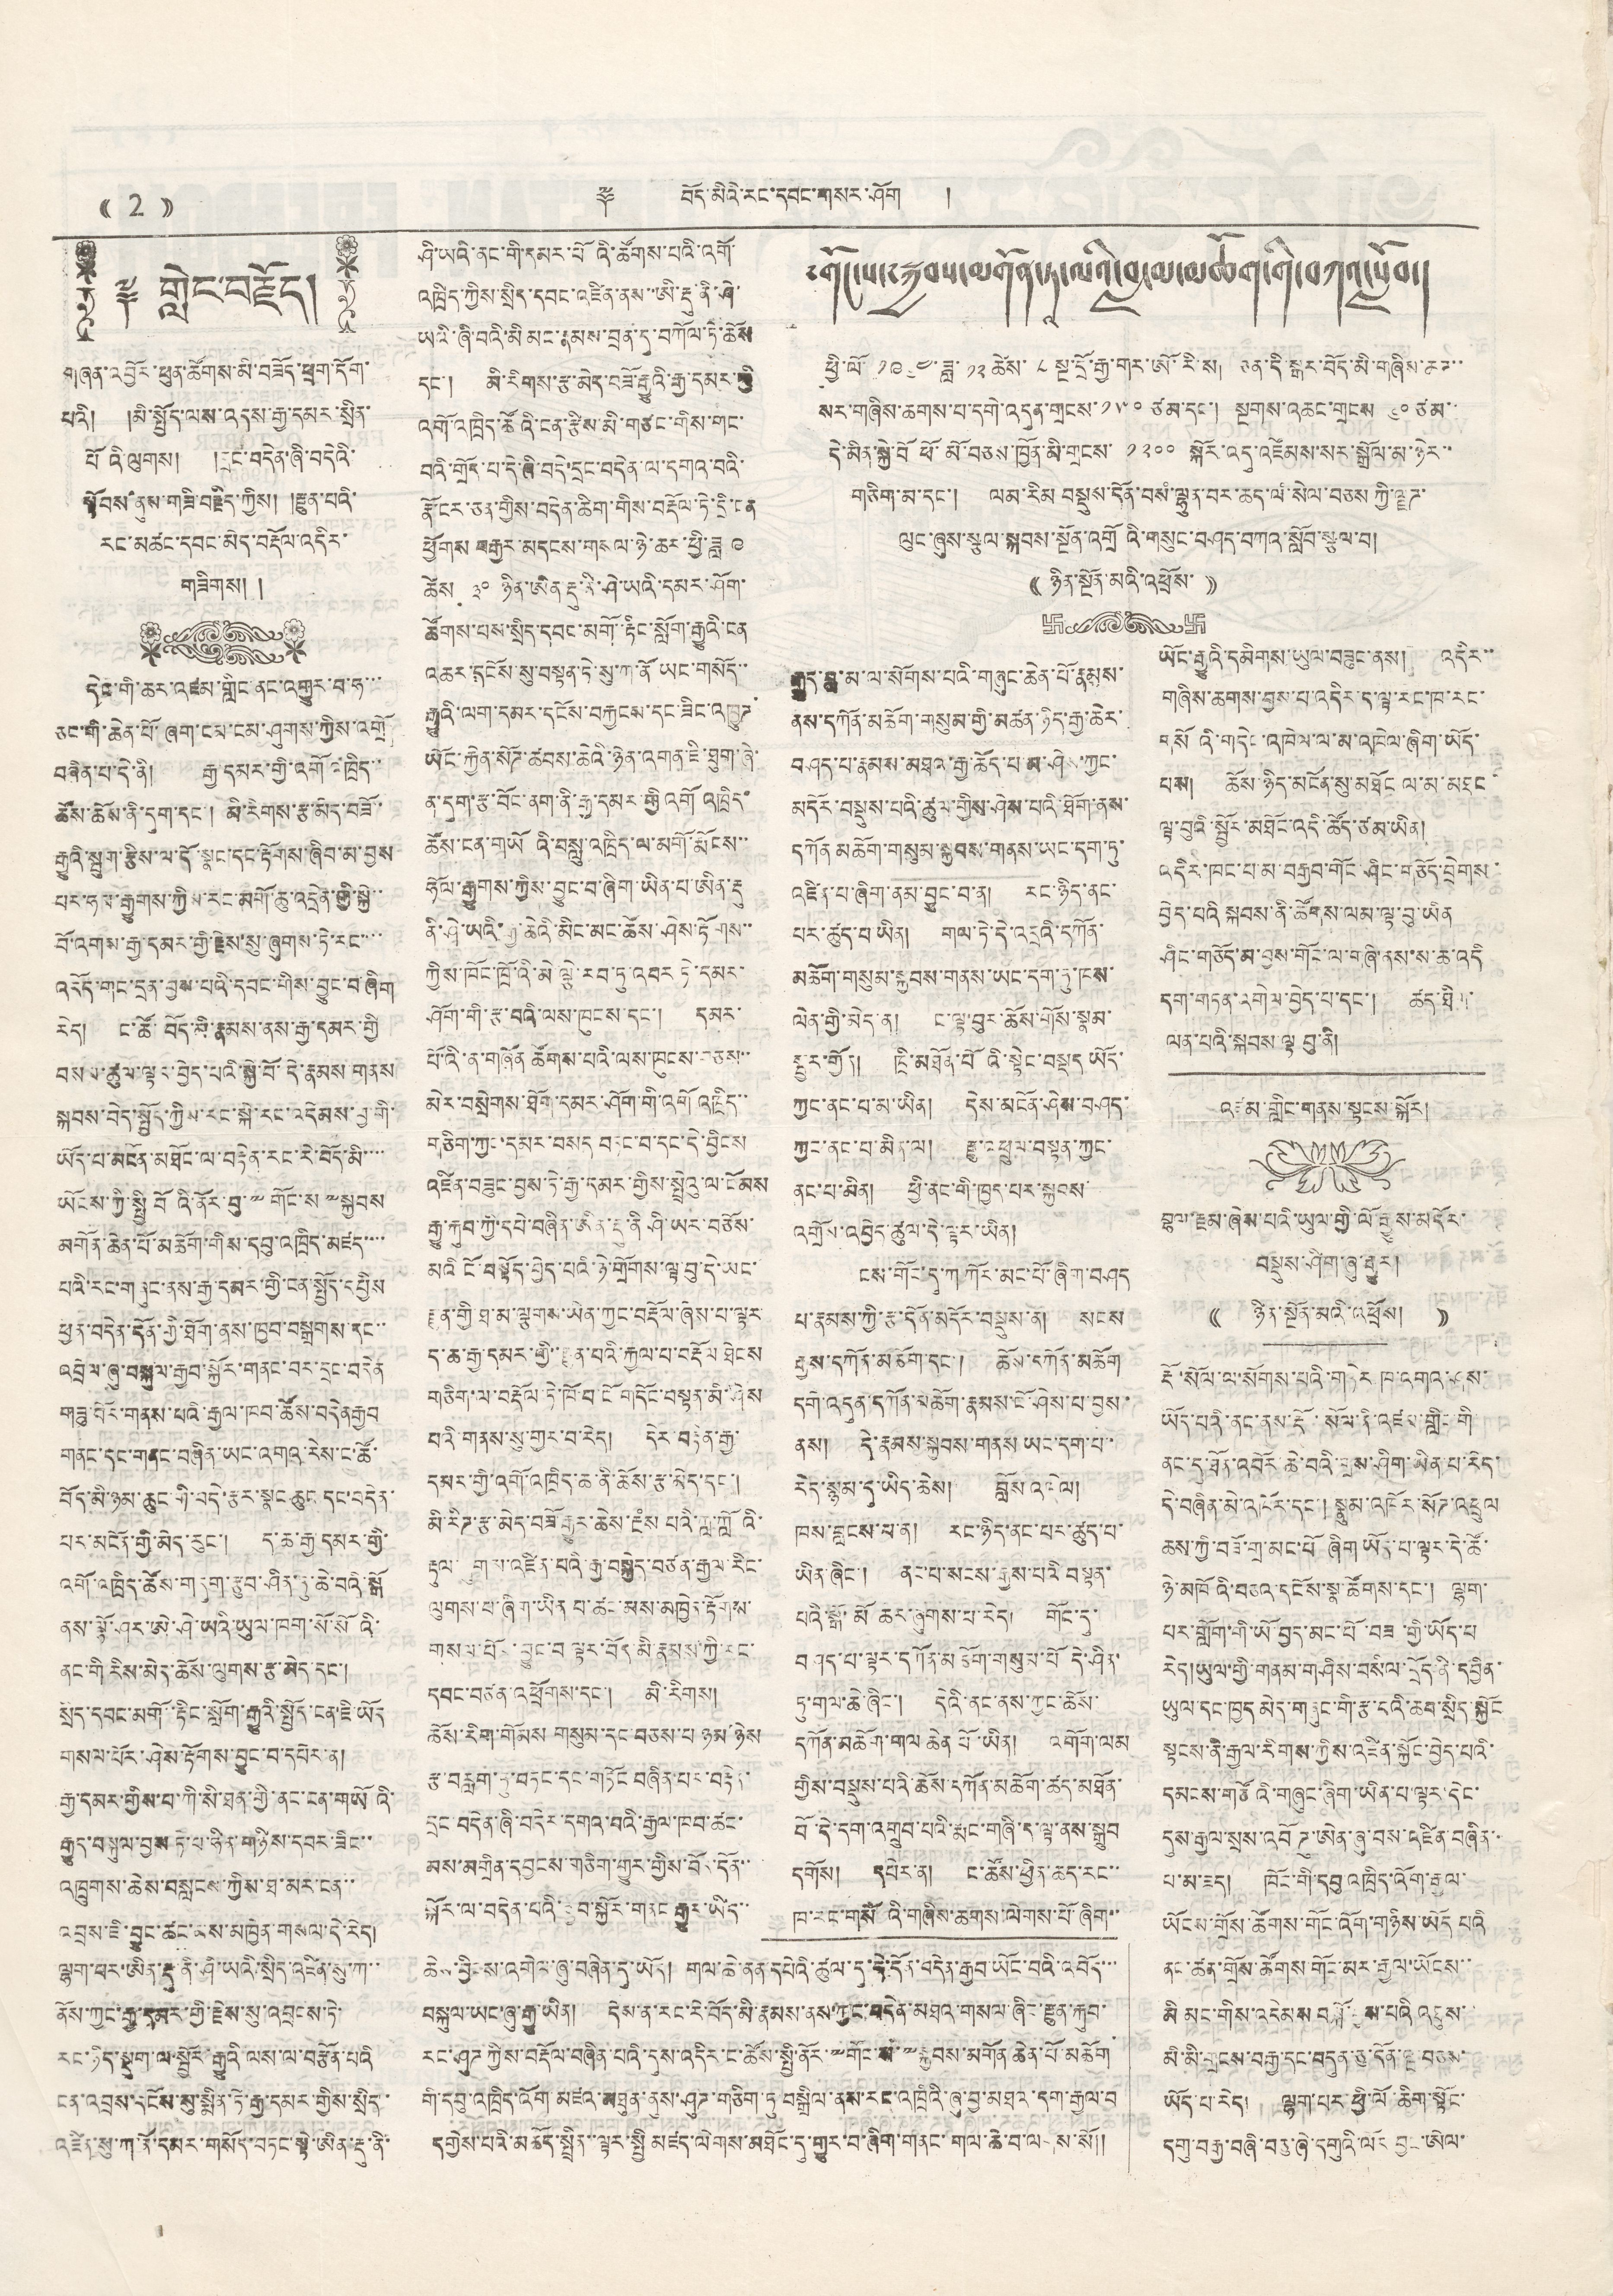(( 2 )) ༈ བོད་མིའི་རང་དབང་གསར་ཤོག །
༈ གླེང་བརྗོད།
གཞན་འབྱོར་ཕུན་ཚོགས་མི་བཟོད་ཕྲག་དོག་
པའི། །མི་སྤྱོད་ལས་འདས་རྒྱ་དམར་སྲིན་
པོའི་ལུགས། །དྲང་བདེན་ཞི་བདེའི་
སྟོབས་ནུས་གཟི་བརྗིད་ཀྱིས། རྫུན་པའི་
རང་མཚང་དབང་མེད་བརྡོལ་འདིར་
གཟིགས། །
དེང་གི་ཆར་འཛམ་གླིང་ནང་འགྱུར་བ་ཧ་་་
ཅང་གི་ཆེན་པོ་ཤག་ངམ་ངམ་ཤུགས་ཀྱིས་འགྲོ
བཞིན་པ་དེ་ནི། རྒྱ་དམར་གྱི་འགོ འཁྲིད་་
ཚོས་ཆོས་ནི་དུག་དང་། མ་རིགས་རྩ་མེད་བཟོ་་
རྒྱུའི་སྦུག་རྩིས་ལ་དོ་སྣང་དང་རྟོགས་ཞིབ་མ་བྱས
པར་ཧལ་རྒྱུགས་ཀྱིས་རང་མགོ་ཆུ་འདྲེན་གྱི་སྐྱེ་་
བོ་འགས་རྒྱ་དམར་གྱི་རྗེས་སུ་ཞུགས་ཏེ་རང་་་་
འདོད་གང་དྲན་བྱས་པའི་དབང་གིས་བྱུང་བ་ཞིག
རེད། ང་ཚོ་བོད་མི་རྣམས་ནས་རྒྱ་དམར་གྱི
བསམ་ཚུལ་ལྟར་བྱེད་པའི་སྐྱེ་བོ་དེ་རྣམས གནས
སྐབས་བདེ་སྤྱོད་ཀྱིས་རང་སྐེ་རང་འདེབས་བྱ་གི་
ཡོད་པ་མངོན་མཐོང་ལ་བརྟེན་རང་རེ་བོད་མི་་་་
ཡོངས་ཀྱི་སྤྱི བོའི་ནོར་བུ་༸གོང་ས་༸སྐྱབས
མགོན་ཆེན་པོ་མཆོག་གིས་དབུ་འཁྲིད་མཛད་་་་
པའི་རང་གཞུང་ནས་རྒྱ་དམར་གྱི་ངན་སྤྱོད་དཔྱིས
ཕྱན་བདེན་དོན་གྱི་ཐོག་ནས་ཁྱབ་བསྒྲགས་དང་་
འབྲེལ་ཞུ་བསྐུལ་རྒྱབ་སྐྱོར་གནག་བར་དྲང་བདེན
གཟུ་བོར་གནས་པའི་རྒྱལ་ཁབ་ཚོས་བདེན རྒྱབ
གནང་དང་གནང་བཞིན་ཡང་འགའ་རེས་ང་ཚོ་
བོད་མི་ཉམ་ཆུང་གི་བདེ་རྩར་སྣང ཆུང དང་བདེན་
པར་མངོན་གྱི་མེད་རུང་། ད་ཆ་རྒྱ་དམར་གྱི་
འགོ་འཁྲིད་ཚོས་གདུག་རྩུབ་ཤིན་ཏུ་ཆེ་བའི་སྒོ
ནས་ལྷོ་ཤར་ཨེ་ཤེ་ཨའི་ཡུལ་ཁག་སོ་སོའི་
ནང་གི རིས་མེད་ཆོས་ལུགས་རྩ་མེད་དང་།
སྲིད་དབང་མགོ་་རྟིང་སློག་རྒྱུའི་སྤྱོད་ངན་ཇི་ཡོད
གསལ་པོར་ཤེས་རྟོགས་བྱུང་བ་དཔེར་ན།
རྒྱ་དམར་གྱིས་པ་ཀི་སི་ཐན་གྱི་ནང་གཡོའི་
རྒྱུད་བསྐུལ་བྱས་ཏེ་པ་ཧིན་གཉིས་དབར་ཟིང་་
འཁྲུགས་ཆེས་བསླངས་ཀྱིས་ཐ་མར་ངན་་་
འབྲས་ཇི་བྱུང་ཚང་མས་མཁྱེན་གསལ་དེ་རེད།
ལྷག་པར་ཨིན་རྡུ་ནི་ཤི་ཡའི་སྲིད་འཛིན་སུ་ཀ་་
ནོས་ཀྱང་རྒྱ་དམར་གྱི་རྗེས་སུ་འབྲངས་ཏེ་
རང་ཉིད་སྡུག་ལ་སྦྱོར་རྒྱུའི་ལས་ལ་བརྩོན་པའི
ངན་འབྲས་དངོས་སུ་སྨིན་ཏེ་རྒྱ་དམར་གྱིས་སྲིད་
འཛིན་སུ་ཀ་ནོ་དམར་གསོད་བཏང་སྟེ་ཨིན་རྡུ་ནི་
ཤི་ཡའི་ནང་གི་དམར་པོའི་ཚོགས་པའི་འགོ་
འཁྲིད་ཀྱིས་སྲིད་དབང་འཛིན་ནས་་ཨི་རྡུ་ནི་ཤེ་
ཡའི་ཞི་བའི་མི མང་རྣམས་བྲན་དུ་བཀོལ་ཏེ་ཆོས
དང་། མི་རིགས་རྩ་མེད་བཟོ རྒྱུའི་རྒྱ་དམར་གྱི
འགོ་འཁྲིད་ཚོའི་ངན་རྩིས་མི་གཙང་གིས་གང་
བའི་གྲོད་པ་དེ་ཞི་བདེ་དྲང་བདེན་ལ་དགའ་བའི་
རྣོ་ངར་ཅན་གྱིས་བདེན་ཚིག་གིས་བརྡོལ་ཏེ་དྲི་ངན
ཕྱོགས བརྒྱར་མདངས་གསལ་ཉེ་ཆར་ཕྱི་ཟླ ༩
ཚེས་ ༣༠ ཉིན་ཨིན་རྡུ་ནི་ཤེ་ཡའི་དམར་ཤོག་
ཚོགས་པས་སྲིད་དབང་མགོ་་རྟིང་སློག་རྒྱུའི་ངན
འཆར་དངོས་སུ་བསྟན་ཏེ་སུ་ཀ་ནོ་ཡང་གསོད་་
རྒྱུའི་ལག་དམར་དངོས་བརྐྱངས་དང་ཟིང་འཁྱུཌ
ཡོང་རྐྱེན་སོཌ་ཚབས་ཆེའི་ཉིན་འགན་ཇི་ཐུག་ཞེ་
ན་དུག་རྩ་བོང་ནག་ནི་རྒྱ་དམར་གྱི འགོ འཁྲིད་
ཆོས་ངན་གཡོ འི་བསླུ་འཁྲིད་ལ་མགོ་རྨོངས་་
ཧོར་རྒྱུགས་ཀྱིས་བྱུང་བ་ཞིག་ཡིན་པ་ཨིན་རྡུ
ནི་ཤེ་ཡའི་རྒྱ་ཆེའི་མིང་མང་ཚོས་ཤེས་རྟོགས་་
ཀྱིས་ཁོང་ཁྲོའི་མེ་ལྕེ་རབ་ཏུ་འབར་ཏེ་དམར་
ཤོག་གི་རྩ་བའི་ལས་ཁུངས་དང་། དམར་
པོ་འི་ན་གཞོན ཚོགས་པའི་ལས་ཁུངས་བཅས་་
མེར་བསྲེགས་ཐོག་དམར་ཤོག་གི་འགོ འཁྲིད་་
གཅིག་ཀྱང་དམར་བསད བཏང་བ་དང་དེ་བྱིངས
འཛིན་བཟུང་བྱས་ཏེ་རྒྱ་དམར་གྱིས་སྤྲེའུ་ལ་ངོམས
རྒྱུ་རྐུབ་ཀྱི་དཔེ་བཞིན་ཨིན་རྡུ་ནི་ཤི་ཡར་བཅོས་
མའི ངོ་བསྟོད་བྱེད་པའི་ཉེ་གྲོགས་ལྟ་བུ་དེ་ཡང་
རྫུན་གྱི་ཐ་མ་ལྕགས་ཡིན་ཀྱང་བརྡོལ་ཞེས་པ་ལྟར་
ད་ཆ་རྒྱ་དམར་གྱི་རྫུན་པའི་རྐྱལ་པ་བརྡོལ ཐེངས
གཅིག་ལ་བརྡོལ་ཏེ་ཁོ་བ་ངོ གདོང་བསྟན་མི་ཤེས
པའི་གནས་སུ་གྱར་བ་རེད། དེར་བརྟེན་རྒྱ་
དམར་གྱི་འགོ་འཁྲིད་ཆ་ནི་ཆོས་རྩ་མེད་དང་།
མི་རིཌ་རྩ་མེད་བཟོ་རྒྱུར་ཆེས་རྔཾས པའི་ཀླ་ཀློའི་
རྟུལ་ཞུགས་འཛིན་པའི་རྒྱ་བསྐྱེད་བཙན་རྒྱལ་རིང་
ལུགས་པ་ཞིག་ཡིན པ་ཚང་མས་མཁྱེན་རྟོགས་
གསལ་པོར་བྱུང་བ ལྟར་བོད་མི་རྣམས་ཀྱི་རང་
དབང་བཙན་འཕྲོགས་དང་། མི་རིགས།
ཆོས་རིག་གོམས གསུམ་དང་བཅས་པ ཉམ་ཉེས
རྩ་བརླག་ཏུ་བཏང་དང་གཏོང་བཞིན་པར་བརྟེན་
དྲང་བདེན་ཞི་བདེར་དགའ་བའི་རྒྱལ་ཁབ་ཚང་
མས་མགྲིན་དབྱངས་གཅིག་གྱུར་བོད་དོན་་
སྐོར་ལ་བདེན་པའི་རྒྱབ་སྐྱོར་གནང་རྒྱུ་ཡིད་་
ཆེས་བྱིངས་འགེལ་ཞུ་བཞིན་དུ་ཡོད། གལ་ཆེ་ནན་དཔེའི་ཚུལ་དུ་དེ་དོན་བདེན་རྒྱབ་ཡོང་བའི་འབོད་་་
བསྐུལ་ཡང་ཞུ་རྒྱུ་ཡིན། དེས་ན་རང་རེ་བོད་མི་རྣམས་ནས་ཀྱང་བདེན་མཐའ་གསལ་ཞིང་རྫུན་རྐུབ་
རང་ཤུཌ་ཀྱིས་བརྡོལ་བཞིན་པའི་དུས་འདིར་ང་ཚོས་སྤྱི་ནོར་༸གོང་ས་༸སྐྱབས་མགོན་ཆེན་པོ་མཆོག
གི་དབུ་འཁྲིད་འོག མཛའ་མཐུན་ནུས་ཤུཌ་གཅིག་ཏུ བསྒྲིལ་ནས་རང་འཁྲིའི་ཞུ་བྱ་མཐའ་དག་རྒྱལ་བ
དགྱེས་པའི་མཆོད་སྤྲིན་་ལྟར་སྤྱི མཛད་ལེགས་མཐོང་དུ་གྱུར་བ་ཞིག་གནང་གལ་ཆེ་བ་ལགས་སོ།།
༸གོང་ས་༸སྐྱབས་མགོན་ཏཱ་ལའི་བླ་མ་མཆོག་གི་བཀའ་སློབ།
ཕྱི་ལོ་ ༡༩༦༤ ཟླ་ ༡༢ ཚེས་ ༨ ཉིན་སྔ་དྲོ་རྒྱ་གར་ཨོ་རི་ས། ཅན་དི་སྒར་བོད་མི་གཞིས་ཆཌ་་
སར་གཞིས་ཆགས་པ་དགེ་འདུན་གྲངས་ ༡༥༠ ཙམ་དང་། སྔགས་འཆང་གྲངས ༦༠ ཙམ་
དེ་མིན་སྐྱེ་བོ ཕོ་མོ་བཅས་ཁྱོན་མི་གྲངས་ ༡༢༠༠ སྐོར་འདུ་འཛོམས་སར་སྒྲོལ་མ་ཉེར་་
གཅིག་མ་དང་། ལམ་རིམ བསྡུས་དོན་བསཾ་ལྷུན་བར་ཆད་ལཾ་སེལ་བཅས ཀྱི་ལྗཌ་
ལུང་ཞུས་སྩལ་སྐབས་སྔོན་འགྲོའི་གསུང་བཤད་བཀའ་སློབ་རྩལ་བ།
(( ཉིན་སྔོན་མའི་འཕྲོས་ ))
རྒྱུད་བླ་མ་ལ་སོགས་པའི་གཞུང་ཆེན་པོ་རྣམས་
བས་དཀོན་མཆོག་གསུམ་གྱི་མཚན་ཉིད་རྒྱ་ཆེར་
བཤད་པ་རྣམས་མཐའ་རྒྱ་ཆོད་པ་མ་ཤེས་ཀྱང་
མདོར་བསྡུས་པའི་ཚུལ་གྱིས་ཤེས་པའི་ཐོག་ནས་
དཀོན་མཆོག་གསུམ་སྐྱབས་གནས་ཡང་དག་ཏུ་
འཛིན་པ་ཞིག་ནམ་བྱུང་བ་ན། རང་ཉིད་ནང་
པར་ཚུལ་པ ཡིན། གལ་ཏེ་དེ་འདྲའི་དཀོན་
མཆོག་གསུམ་སྐྱབས་གནས་ཡང་དག་ཏུ་ཁས་
ལེན་གྱི་མེད་ན། ང་ལྟ་བུར་ཆོས་གོས་སྣམ་
སྦྱར་གྱོན། ཁྲི་མཐོན་པོའི་སྟེང་བསྡད ཡོད་
ཀྱང་ནང་པ་མ་ཡིན། དེས་མངོན་ཤེས་བཤད་
ཀྱང་ནང་པ་མིན་ལ། རྫུ་འཕྲུལ་བསྟན་ཀྱང་
ནང་པ་མིན། ཕྱི་ནང་གི་ཁྱད་པར་སྐྱབས་
འགྲོས་འབྱོར་ཚུལ་དེ་ལྟར་ཡིན།
ངས་གོང་དུ་ཀ ཀོར་མང་པོ་ཞིག་བཤད
པ་རྣམས་ཀྱི་རྩ་དོན་མདོར་བསྡུས་ན། སངས
རྒྱས་དཀོན་མཆོག་དང་། ཆོས་དཀོན་མཆོག
དགེ་འདུན་དཀོན་མཆོག་རྣམས་ངོ་ཤེས་པ་བྱས་
ནས། དེ་རྣམས་སྐྱབས་གནས་ཡང་དག་པ་་
རེད་སྙམ་དུ་ཡིད་ཆེས། བློས འཁེལ།
ཁས་བླངས་པ་ན། རང་ཉིད་ནང་པར་ཚུད་པ་
ཡིན་ཞིང་། ནང་པ་སངས་རྒྱས་པའི་བསྟན་
པའི་སྒོ་མོ ཆར་ཞུགས་པ་རེད། གོང་དུ་
བཤད་པ་ལྟར་དཀོན་མཆོག་གསུམ་པོ དེ་ཤིན་
ཏུ་གལ་ཆེ་ཞིང་། དེའི་ནང་ནས་ཀྱང་ཆོས་
དཀོན་མཆོག་གལ ཆེན་པོ་ཡིན། འགོག་ལམ
གྱིས་བསྡུས་པའི་ཆོས་དཀོན་མཆོག་ཚད་མཐོན་
བོ་དེ་དག་འགྲུབ་པའི་རྨང་གཞི་ད་ལྟ་ནས་སྒྲུབ
དགོས། དཔེར་ན། ང་ཚོས་ཕྱིན་ཆད་རང་་
ཁ་རང་གསོ འི་གཞིས་ཆགས་ལེགས་པོ་ཞིག་་
ཡོང་རྒྱུའི་དམིགས་ཡུལ་བཟུང་ནས། འདིར་་
གཞིས་ཆགས་བྱས་པ་འདིར་ད་ལྟ་རང་ཁ་རང་
གསོ འི་གདེང་འཁེལ་ལ་མ་འཁེལ་ཞིག་ཡོད་
པས། ཆོས་ཉིད་མངོན་སུ་མཐོང ལ་མ་མཐང་
ལྟ་བུའི་སྦྱོར་མཐོང་འདི་ཚོད་ཙམ་ཡིན།
འདིར་ཁང་པ་མ་བརྒྱབ་གོང་ཤིང་གཅོད་བྲེགས་
བྱེད་པའི སྐབས་ནི་ཚོགས་ལམ་ལྟ་བུ་ཡིན
ཤིང་གཅོད་མ་བྱས་གོང་ལ་གཞི་ནས་ས་ཆ་འདི
དག་གཏན་འགེལ་བྱེད་པ་དང་། ཚད་ཐིག
ལན་པའི་སྐབས་ལྟ བུ་ནི།
འཛམ་གླིང་གནས་སྟངས་སྐོར།
བྷལ་རྗམ་ཞེས་པའི་ཡུལ་གྱི་ལོ་རྒྱུས་མདོར་
བསྡུས་ཤིག་ཞུ་རྒྱུར།
(( ཉིན་སྔོན་མའི་འཕྲོས། ))
རྡོ་སོལ་ལ་སོགས་པའི་གཏེར ཁ་འགའ་ཤས་
ཡོད་པའི་ནང་ནས་རྡོ་སོལ་ནི་འཛམ་གླིང་གི
ནང་དུ་ཐོན་འབོར་ཆེ་བའི་གྲས་ཤིག་ཡིན་པ་རེད་
དེ་བཞིན་མེ་འཁོར་དང་། སྣུམ་འཁོར་སོཌ་འཕྲུལ
ཆས་ཀྱི་བཟོ་གྲ་མང་པོ ཞིག ཡོད་པ་ལྟར་དེ་ཚོ་
ཉེ་འཁོའི་བཅའ་དངོས་སྣ་ཚོགས་དང་། ལྷག་
པར་གློག་གི་ཡོ་བྱད་མང་པོ་བཟ་གྱི་ཡོད་པ
རེད།ཡུལ་གྱི་གནས་གཤིས་བསིལ་དྲོད་ནི་དབྱིན་
ཡུལ་དང་ཁྱད མེད་གཞུང་གི་རྩ་བའི་ཆབ་སྲིད་སྐྱོང
སྟངས་ནི་རྒྱལ་རིགས་ཀྱིས་འཛིན་སྐྱོང་བྱེད་པའི་
དམངས་གཙོའི་གཞུང་ཞིག་ཡིན་པ་ལྟར་དེང་
དུས་རྒྱས་སྲས་འབོཌུ་ཨེན་ཞུ་བས་འཛིན་བཞིན་
པ་མ་ཟད། ཁོང་གི་དབུ་འཁྲིད་འོག་རྒྱལ་
ཡོངས་གྲོས་ཚོགས་གོང་འོག་གཉིས་ཡོད་པའི
ནང་ཚན་གྲོས་ཚོགས་གོང་མར་རྒྱལ་ཡོངས་་
མི མང་གིས་འདེམས བསྐོ་བྱས་པའི འཐུས་
མི་མི་གྲངས་བརྒྱ་དང་བདུན་ཅུ་དོན་སྔ་བཅས་
ཡོད་པ་རེད། ལྷག་པར་ཕྱི་ལོ་ཆིག་སྟོང་
དགུ་བརྒྱ་བཞི་བཅུ་ཞེ་དགུའི་ལོར བྱང་ཨེལ་
